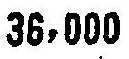36,000
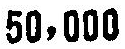50,000
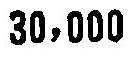30,000
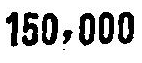150,000
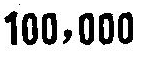100,000
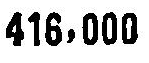416,000
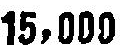15,000
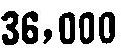36,000
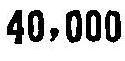40,000
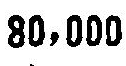80,000
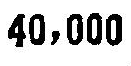40,000
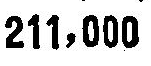211,000
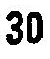30
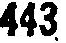443
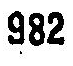982
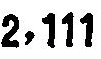2,111
